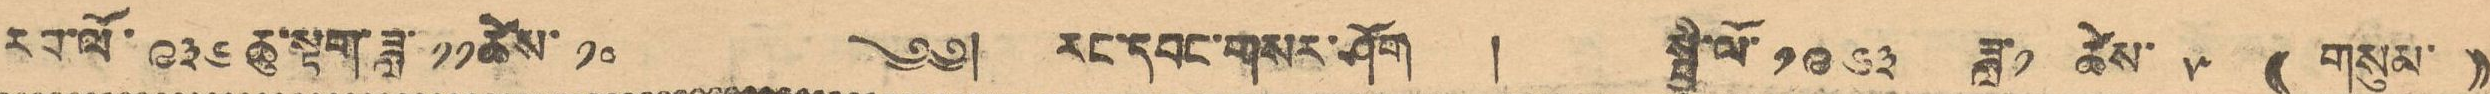རབ་ལོ ༩༣༦ ཆུ་སྟག་ཟླ་ ༡༡ ཚེས་ ༡༠ ༄༅། རང་དབང་གསར་ཤོག ། སྤྱི་ལོ་ ༡༩༦༣ ཟླ་ ༡ ཚེས་ ༥ (( གསུམ་ ))
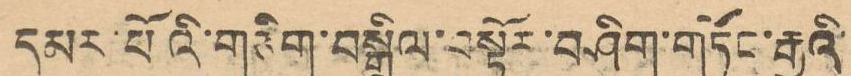དམར་པོའི་གཅིག་བསྒྲིལ་བསྟོར་བཤིག་གཏོང་རྒྱུའི་
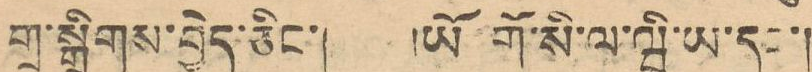གྲ་སྒྲིགས་བྱེད་ཅིང་། ཡོ་གོ་སི་ལ་ཝི་ཡ་དང་།
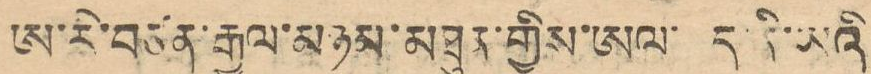ཨ་རི་བཙན་རྒྱལ་མཉམ་མཐུན་གྱིས་ཨལ་བྷད་ནི་ཡའི་
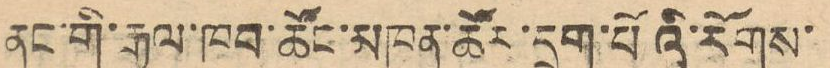ནང་གི་རྒྱལ་ཁབ་ཚོང་མཁན་ཚོར་དྲག་པོའི་རོགས་
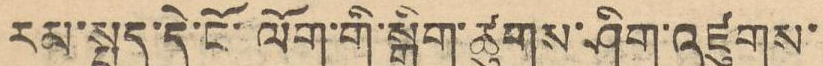རམ་སྤྲད་དེ་ངོ་ལོག་གི་སྒྲིག་ཚུགས་ཤིག་འཛུགས་
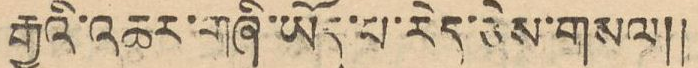རྒྱུའི་འཆར་གཞི་ཡོད་པ་རེད་ཅེས་གསལ།།
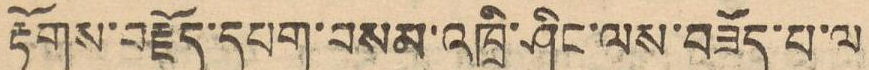རྟོགས་བརྗོད་དཔག་བསམ་འཁྲི་ཤིང་ལས་བཟོད་པ་ལ
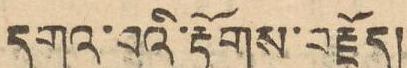དགའ་བའི་རྟོགས་བརྗོད།
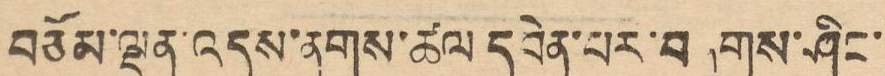བཅོམ་ལྡན་འདས་ནགས་ཚལ དབེན་པར་བཞུགས་ཤིང་
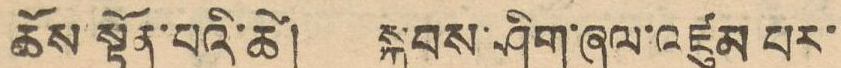ཆོས་སྟོན་པའི་ཚེ། སྐབས་ཤིག་ཞལ་འཛུམ པར་
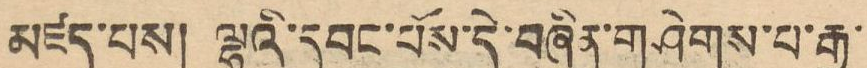མཛད་པས། ལྷའི་དབང་པོས་དེ་བཞིན་གཤེགས་པ་རྒྱུ་
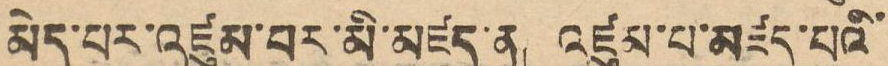མེད་པར་འཛུམ་པར་མི་མཛད་ན། འཛུམ་པ་མཛད་པའི་
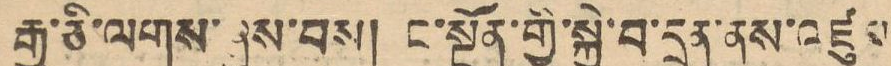རྒྱ་ཅི་ལགས་ཞུས་བས། ང་སྔོན་གྱི་སྐྱེ་བ་དྲན་ནས་འཛུམ
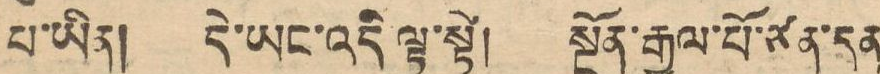པ་ཡིན། དེ་ཡང་འདི ལྟ་སྟེ། སྔོན་རྒྱལ་པོ་ཙན་དན
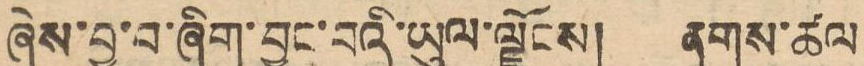ཞེས་བྱ་བ་ཞིག་བྱུང་བའི་ཡུལ་ལྗོངས། ནགས་ཚལ
